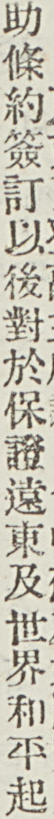助條約簽訂以後對於保證遠東及世界和平起
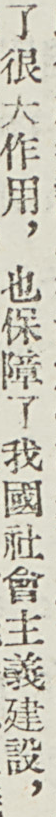了很大作用，也保障了我國社會主義建設，
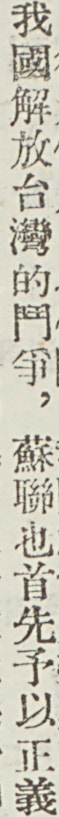我國解放台灣的鬥爭，蘇聯也首先予以正義
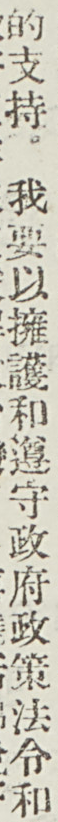的支持，我要以擁護和遵守政府政策法令和
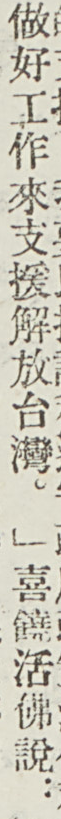做好工作來支援解放台灣。」喜饒活佛說：
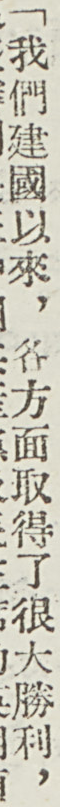「我們建國以來，各方面取得了很大勝利，
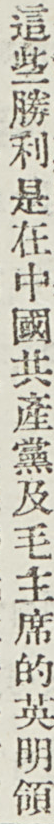這些勝利是在中國共產黨及毛主席的英明領
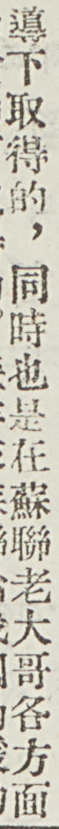導下取得的，同時也是在蘇聯老大哥各方面
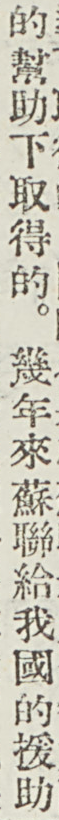的幫助下取得的。幾年來蘇聯給我國的援助
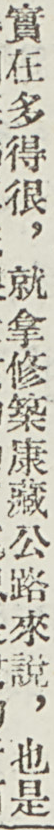實在多得很，就拿修築康藏公路來說，也是
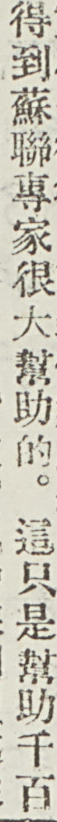得到蘇聯專家很大幫助的。這只是幫助千百
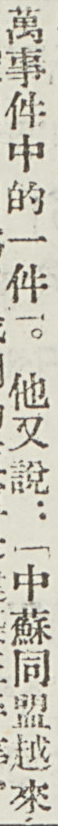萬事件中的一件。他又說：「中蘇同盟越來
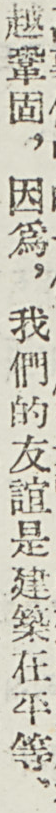越鞏固，因爲，我們的友誼是建築在平等、
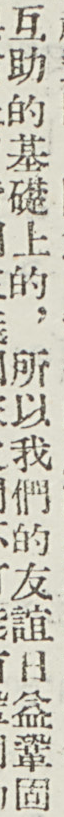互助的基礎上的，所以我們的友誼日益鞏固
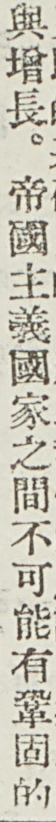與增長。帝國主義國家之間不可能有鞏固的
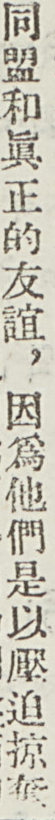同盟和眞正的友誼，因爲他們是以壓迫掠奪
